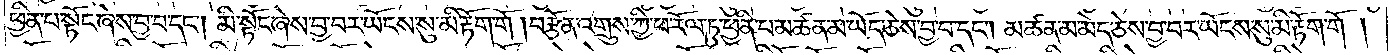ཕྱིན་པ་སྟོང་ཞེས་བྱ་བ་དང༌། མི་སྟོང་ཞེས་བྱ་བར་ཡོངས་སུ་མི་རྟོག་གོ །བརྩོན་འགྲུས་ཀྱི་ཕ་རོལ་ཏུ་ཕྱིན་པ་མཚན་མ་ཡོད་ཅེས་བྱ་བ་དང༌། མཚན་མ་མེད་ཅེས་བྱ་བར་ཡོངས་སུ་མི་རྟོག་གོ །
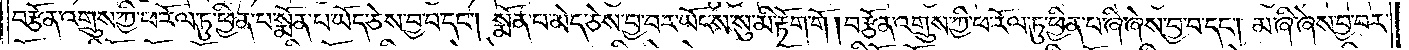བརྩོན་འགྲུས་ཀྱི་ཕ་རོལ་ཏུ་ཕྱིན་པ་སྨོན་པ་ཡོད་ཅེས་བྱ་བ་དང༌། སྨོན་པ་མེད་ཅེས་བྱ་བར་ཡོངས་སུ་མི་རྟོག་གོ །བརྩོན་འགྲུས་ཀྱི་ཕ་རོལ་ཏུ་ཕྱིན་པ་ཞི་ཞེས་བྱ་བ་དང༌། མ་ཞི་ཞེས་བྱ་བར་
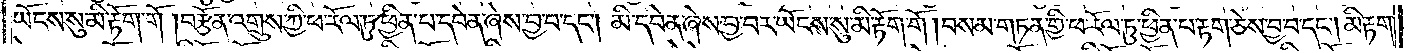ཡོངས་སུ་མི་རྟོག་གོ །བརྩོན་འགྲུས་ཀྱི་ཕ་རོལ་ཏུ་ཕྱིན་པ་དབེན་ཞེས་བྱ་བ་དང༌། མི་དབེན་ཞེས་བྱ་བར་ཡོངས་སུ་མི་རྟོག་གོ །བསམ་གཏན་གྱི་ཕ་རོལ་ཏུ་ཕྱིན་པ་རྟག་ཅེས་བྱ་བ་དང༌། མི་རྟག་
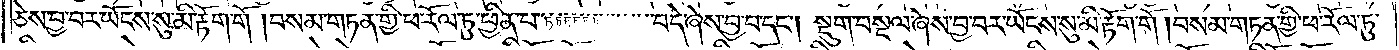ཅེས་བྱ་བར་ཡོངས་སུ་མི་རྟོག་གོ །བསམ་གཏན་གྱི་ཕ་རོལ་ཏུ་ཕྱིན་པ་བདེ་ཞེས་བྱ་བ་དང༌། སྡུག་བསྔལ་ཞེས་བྱ་བར་ཡོངས་སུ་མི་རྟོག་གོ །བསམ་གཏན་གྱི་ཕ་རོལ་ཏུ་
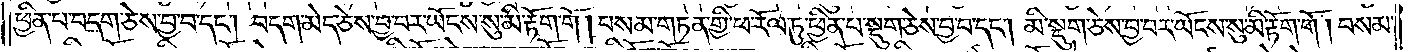ཕྱིན་པ་བདག་ཅེས་བྱ་བ་དང༌། བདག་མེད་ཅེས་བྱ་བར་ཡོངས་སུ་མི་རྟོག་གོ །བསམ་གཏན་གྱི་ཕ་རོལ་ཏུ་ཕྱིན་པ་སྡུག་ཅེས་བྱ་བ་དང༌། མི་སྡུག་ཅེས་བྱ་བར་ཡོངས་སུ་མི་རྟོག་གོ །བསམ་
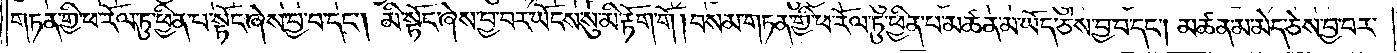གཏན་གྱི་ཕ་རོལ་ཏུ་ཕྱིན་པ་སྟོང་ཞེས་བྱ་བ་དང༌། མི་སྟོང་ཞེས་བྱ་བར་ཡོངས་སུ་མི་རྟོག་གོ །བསམ་གཏན་གྱི་ཕ་རོལ་ཏུ་ཕྱིན་པ་མཚན་མ་ཡོད་ཅེས་བྱ་བ་དང༌། མཚན་མ་མེད་ཅེས་བྱ་བར་
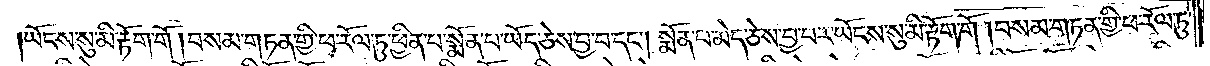ཡོངས་སུ་མི་རྟོག་གོ །བསམ་གཏན་གྱི་ཕ་རོལ་ཏུ་ཕྱིན་པ་སྨོན་པ་ཡོད་ཅེས་བྱ་བ་དང༌། སྨོན་པ་མེད་ཅེས་བྱ་བར་ཡོངས་སུ་མི་རྟོག་གོ །བསམ་གཏན་གྱི་ཕ་རོལ་ཏུ་
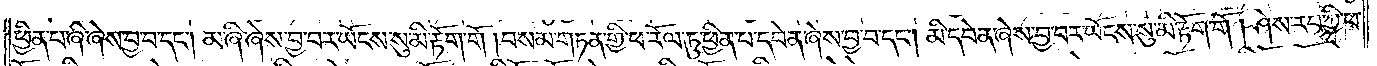ཕྱིན་པ་ཞི་ཞེས་བྱ་བ་དང༌། མ་ཞི་ཞེས་བྱ་བར་ཡོངས་སུ་མི་རྟོག་གོ །བསམ་གཏན་གྱི་ཕ་རོལ་ཏུ་ཕྱིན་པ་དབེན་ཞེས་བྱ་བ་དང༌། མི་དབེན་ཞེས་བྱ་བར་ཡོངས་སུ་མི་རྟོག་གོ །ཤེས་རབ་ཀྱི་ཕ་
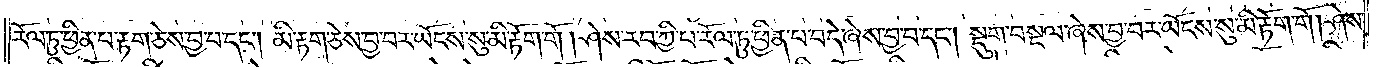རོལ་ཏུ་ཕྱིན་པ་རྟག་ཅེས་བྱ་བ་དང༌། མི་རྟག་ཅེས་བྱ་བར་ཡོངས་སུ་མི་རྟོག་གོ །ཤེས་རབ་ཀྱི་ཕ་རོལ་ཏུ་ཕྱིན་པ་བདེ་ཞེས་བྱ་བ་དང༌། སྡུག་བསྔལ་ཞེས་བྱ་བར་ཡོངས་སུ་མི་རྟོག་གོ །ཤེས་
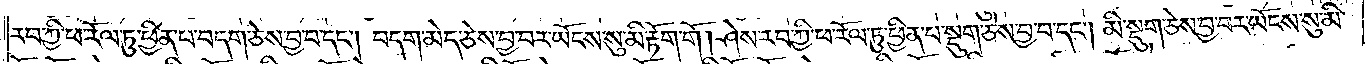རབ་ཀྱི་ཕ་རོལ་ཏུ་ཕྱིན་པ་བདག་ཅེས་བྱ་བ་དང༌། བདག་མེད་ཅེས་བྱ་བར་ཡོངས་སུ་མི་རྟོག་གོ །ཤེས་རབ་ཀྱི་ཕ་རོལ་ཏུ་ཕྱིན་པ་སྡུག་ཅེས་བྱ་བ་དང༌། མི་སྡུག་ཅེས་བྱ་བར་ཡོངས་སུ་མི་
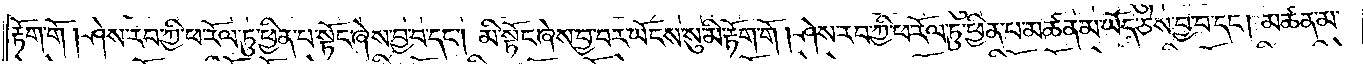རྟོག་གོ །ཤེས་རབ་ཀྱི་ཕ་རོལ་ཏུ་ཕྱིན་པ་སྟོང་ཞེས་བྱ་བ་དང༌། མི་སྟོང་ཞེས་བྱ་བར་ཡོངས་སུ་མི་རྟོག་གོ །ཤེས་རབ་ཀྱི་ཕ་རོལ་ཏུ་ཕྱིན་པ་མཚན་མ་ཡོད་ཅེས་བྱ་བ་དང༌།མཚན་མ་
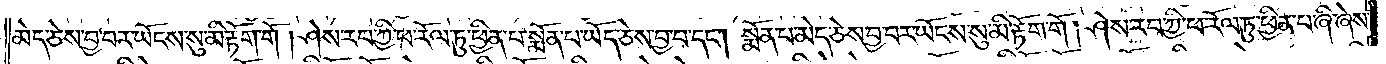མེད་ཅེས་བྱ་བར་ཡོངས་སུ་མི་རྟོག་གོ །ཤེས་རབ་ཀྱི་ཕ་རོལ་ཏུ་ཕྱིན་པ་སྨོན་པ་ཡོད་ཅེས་བྱ་བ་དང༌། སྨོན་པ་མེད་ཅེས་བྱ་བར་ཡོངས་སུ་མི་རྟོག་གོ །ཤེས་རབ་ཀྱི་ཕ་རོལ་ཏུ་ཕྱིན་པ་ཞི་ཞེས་
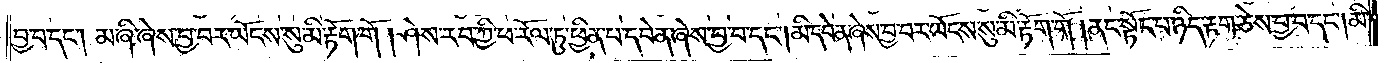བྱ་བ་དང༌། མ་ཞི་ཞེས་བྱ་བར་ཡོངས་སུ་མི་རྟོག་གོ །ཤེས་རབ་ཀྱི་ཕ་རོལ་ཏུ་ཕྱིན་པ་དབེན་ཞེས་བྱ་བ་དང༌། མི་དབེན་ཞེས་བྱ་བར་ཡོངས་སུ་མི་རྟོག་གོ །ནང་སྟོང་པ་ཉིད་རྟག་ཅེས་བྱ་བ་དང༌། མི་
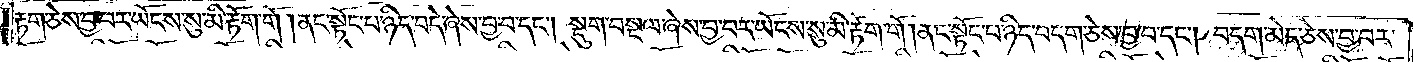རྟག་ཅེས་བྱ་བར་ཡོངས་སུ་མི་རྟོག་གོ །ནང་སྟོང་པ་ཉིད་བདེ་ཞེས་བྱ་བ་དང༌། སྡུག་བསྔལ་ཞེས་བྱ་བར་ཡོངས་སུ་མི་རྟོག་གོ །ནང་སྟོང་པ་ཉིད་བདག་ཅེས་བྱ་བ་དང༌། བདག་མེད་ཅེས་བྱ་བར་
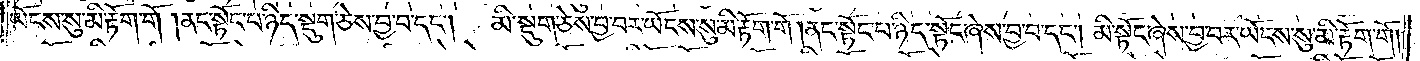ཡོངས་སུ་མི་རྟོག་གོ །ནང་སྟོང་པ་ཉིད་སྡུག་ཅེས་བྱ་བ་དང༌། མི་སྡུག་ཅེས་བྱ་བར་ཡོངས་སུ་མི་རྟོག་གོ །ནང་སྟོང་པ་ཉིད་སྟོང་ཞེས་བྱ་བ་དང༌། མི་སྟོང་ཞེས་བྱ་བར་ཡོངས་སུ་མི་རྟོག་གོ །
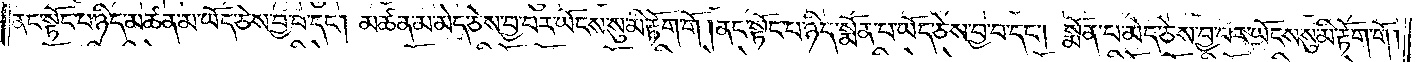ནང་སྟོང་པ་ཉིད་མཚན་མ་ཡོད་ཅེས་བྱ་བ་དང༌། མཚན་མ་མེད་ཅེས་བྱ་བར་ཡོངས་སུ་མི་རྟོག་གོ །ནང་སྟོང་པ་ཉིད་སྨོན་པ་ཡོད་ཅེས་བྱ་བ་དང༌། སྨོན་པ་མེད་ཅེས་བྱ་བར་ཡོངས་སུ་མི་རྟོག་གོ །
